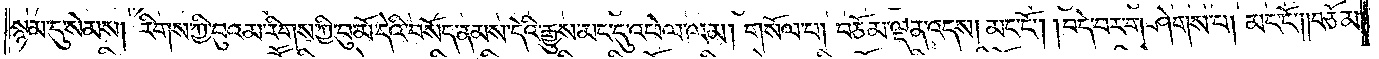སྙམ་དུ་སེམས། རིགས་ཀྱི་བུའམ་རིགས་ཀྱི་བུ་མོ་དེའི་བསོད་ནམས་དེའི་རྒྱུས་མང་དུ་འཕེལ་ལམ། གསོལ་པ། བཅོམ་ལྡན་འདས། མང་ངོ༌། །བདེ་བར་གཤེགས་པ། མང་ངོ༌། །བཅོམ་
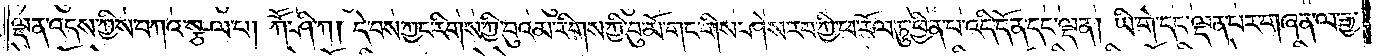ལྡན་འདས་ཀྱིས་བཀའ་སྩལ་པ། ཀཽ་ཤི་ཀ། དེ་བས་ཀྱང་རིགས་ཀྱི་བུ་འམ་རིགས་ཀྱི་བུ་མོ་གང་གིས་ཤེས་རབ་ཀྱི་ཕ་རོལ་ཏུ་ཕྱིན་པ་འདི་དོན་དང་ལྡན། ཡི་གེ་དང་ལྡན་པར་གཞན་ལ་རྒྱ་
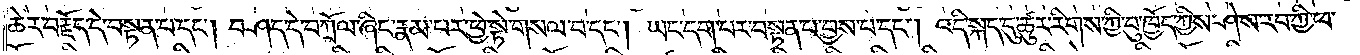ཆེར་བརྗོད་དེ་བསྟན་པ་དང༌། བཤད་དེ་བཀྲོལ་ཞིང་རྣམ་པར་ཕྱེ་སྟེ་གསལ་བ་དང༌། ཡང་དག་པར་བསྟན་པ་བྱས་པ་དང༌། འདི་སྐད་དུ་ཚུར་རིགས་ཀྱི་བུ་ཁྱོད་ཀྱིས་ཤེས་རབ་ཀྱི་ཕ་
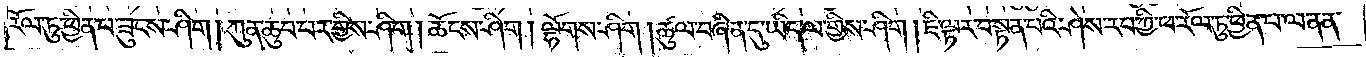རོལ་ཏུ་ཕྱིན་པ་ཟུངས་ཤིག །ཀུན་ཆུབ་པར་གྱིས་ཤིག། ཆོངས་ཤིག། ལྷོགས་ཤིག། ཚུལ་བཞིན་དུ་ཡིད་ལ་གྱིས་ཤིག །ཇི་ལྟར་བསྟན་པའི་ཤེས་རབ་ཀྱི་ཕ་རོལ་ཏུ་ཕྱིན་པ་ལ་ནན་
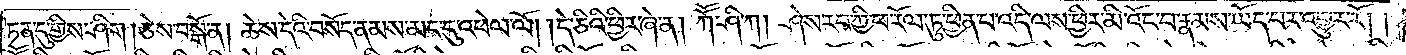ཏན་དུ་གྱིས་ཤིག། ཅེས་བསྒོ་ན། ཆེས་དེའི་བསོད་ནམས་མང་དུ་འཕེལ་ལོ། །དེ་ཅིའི་ཕྱིར་ཞེ་ན། ཀཽ་ཤི་ཀ། ཤེས་རབ་ཀྱི་ཕ་རོལ་ཏུ་ཕྱིན་པ་འདི་ལས་ཕྱིར་མི་འོང་བ་རྣམས་ཡོད་པར་འགྱུར་རོ། །
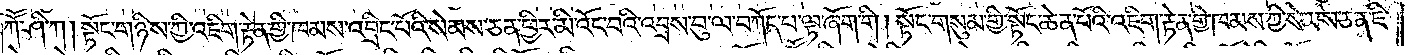ཀཽ་ཤི་ཀ། སྟོང་གཉིས་ཀྱི་འཇིག་རྟེན་གྱི་ཁམས་འབྲིང་པོའི་སེམས་ཅན་ཕྱིར་མི་འོང་བའི་འབྲས་བུ་ལ་བཀོད་པ་ལྟ་ཞོག་གི །སྟོང་གསུམ་གྱི་སྟོང་ཆེན་པོའི་འཇིག་རྟེན་གྱི་ཁམས་ཀྱི་སེམས་ཅན་ཇི་
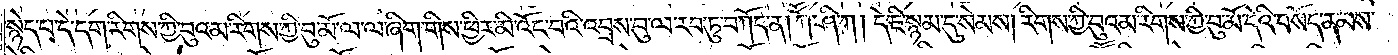སྙེད་པ་དེ་དག་རིགས་ཀྱི་བུའམ་རིགས་ཀྱི་བུ་མོ་ལ་ལ་ཞིག་གིས་ཕྱིར་མི་འོང་བའི་འབྲས་བུ་ལ་རབ་ཏུ་བཀོད་ན། ཀཽ་ཤི་ཀ། དེ་ཇི་སྙམ་དུ་སེམས། རིགས་ཀྱི་བུའམ་རིགས་ཀྱི་བུ་མོ་དེའི་བསོད་ནམས་
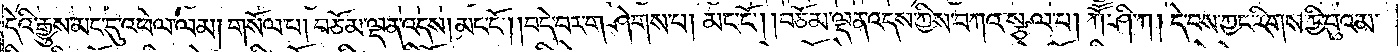དེའི་རྒྱུས་མང་དུ་འཕེལ་ལམ། གསོལ་པ། བཅོམ་ལྡན་འདས། མང་ངོ༌། །བདེ་བར་གཤེགས་པ། མང་ངོ༌། །བཅོམ་ལྡན་འདས་ཀྱིས་བཀའ་སྩལ་པ། ཀཽ་ཤི་ཀ། དེ་བས་ཀྱང་རིགས་ཀྱི་བུའམ་
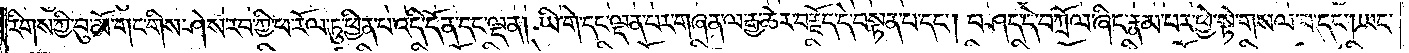རིགས་ཀྱི་བུ་མོ་གང་གིས་ཤེས་རབ་ཀྱི་ཕ་རོལ་ཏུ་ཕྱིན་པ་འདི་དོན་དང་ལྡན། ཡི་གེ་དང་ལྡན་པར་གཞན་ལ་རྒྱ་ཆེར་བརྗོད་དེ་བསྟན་པ་དང༌། བཤད་དེ་བཀྲོལ་ཞིང་རྣམ་པར་ཕྱེ་སྟེ་གསལ་བ་དང༌། ཡང་
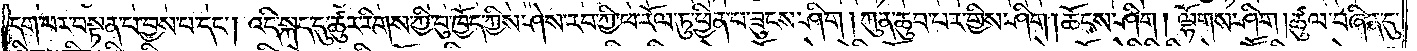དག་པར་བསྟན་པ་བྱས་པ་དང༌། འདི་སྐད་དུ་ཚུར་རིགས་ཀྱི་བུ་ཁྱོད་ཀྱིས་ཤེས་རབ་ཀྱི་ཕ་རོལ་ཏུ་ཕྱིན་པ་ཟུངས་ཞིག །ཀུན་ཆུབ་པར་གྱིས་ཤིག །ཆོངས་ཤིག །ལྷོགས་ཤིག །ཚུལ་བཞིན་དུ་
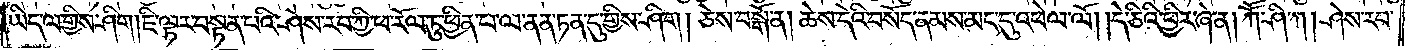ཡིད་ལ་གྱིས་ཤིག །ཇི་ལྟར་བསྟན་པའི་ཤེས་རབ་ཀྱི་ཕ་རོལ་ཏུ་ཕྱིན་པ་ལ་ནན་ཏན་དུ་གྱིས་ཤིག། ཅེས་བསྒོ་ན། ཆེས་དེའི་བསོད་ནམས་མང་དུ་འཕེལ་ལོ། །དེ་ཅིའི་ཕྱིར་ཞེ་ན། ཀཽ་ཤི་ཀ། ཤེས་རབ་
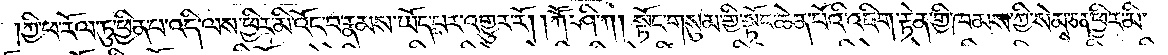ཀྱི་ཕ་རོལ་ཏུ་ཕྱིན་པ་འདི་ལས་ཕྱིར་མི་འོང་བ་རྣམས་ཡོད་པར་འགྱུར་རོ། །ཀོ་ཤི་ཀ། སྟོང་གསུམ་གྱི་སྟོང་ཆེན་པོའི་འཇིག་རྟེན་གྱི་ཁམས་ཀྱི་སེམས་ཅན་ཕྱིར་མི་
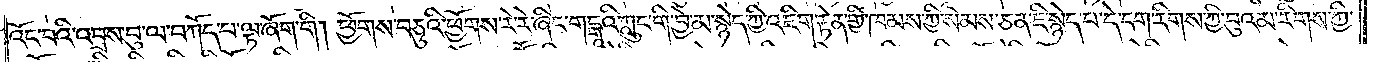འོང་བའི་འབྲས་བུ་ལ་བཀོད་པ་ལྟ་ཞོག་གི །ཕྱོགས་བཅུའི་ཕྱོགས་རེ་རེ་ཞིང་གངྒཱའི་ཀླུང་གེ་བྱེ་མ་སྙེད་ཀྱི་འཇིག་རྟེན་གྱི་ཁམས་ཀྱི་སེམས་ཅན་ཇི་སྙེད་པ་དེ་དག་རིགས་ཀྱི་བུ་འམ་རིགས་ཀྱི་
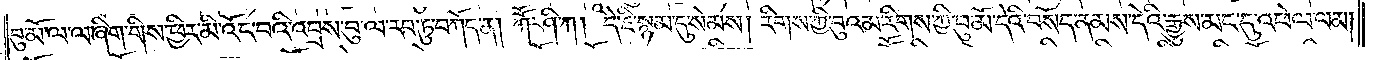བུ་མོ་ལ་ལ་ཞིག་གིས་ཕྱིར་མི་འོང་བའི་འབྲས་བུ་ལ་རབ་ཏུ་བཀོད་ན། ཀཽ་ཤི་ཀ། དེ་ཇི་སྙམ་དུ་སེམས། རིགས་ཀྱི་བུའམ་རིགས་ཀྱི་བུ་མོ་དེའི་བསོད་ནམས་དེའི་རྒྱུས་མང་དུ་འཕེལ་ལམ།
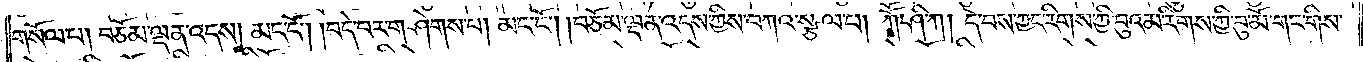གསོལ་པ། བཅོམ་ལྡན་འདས། མང་ངོ༌། །བདེ་བར་གཤེགས་པ། མང་ངོ༌། །བཅོམ་ལྡན་འདས་ཀྱིས་བཀའ་སྩལ་པ། ཀཽ་ཤི་ཀ། དེ་བས་ཀྱང་རིགས་ཀྱི་བུའམ་རིགས་ཀྱི་བུ་མོ་གང་གིས་
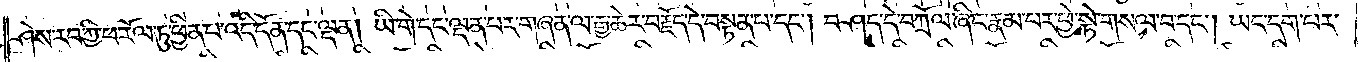ཤེས་རབ་ཀྱི་ཕ་རོལ་ཏུ་ཕྱིན་པ་འདི་དོན་དང་ལྡན། ཡི་གེ་དང་ལྡན་པར་གཞན་ལ་རྒྱ་ཆེར་བརྗོད་དེ་བསྟན་པ་དང༌། བཤད་དེ་བཀྲོལ་ཞིང་རྣམ་པར་ཕྱེ་སྟེ་གསལ་བ་དང༌། ཡང་དག་པར་
